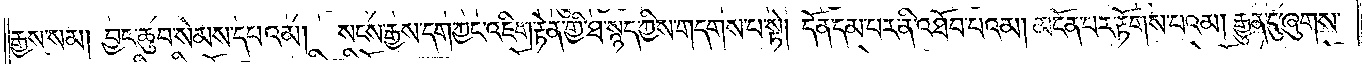རྒྱས་སམ། བྱང་ཆུབ་སེམས་དཔའམ། སངས་རྒྱས་དག་ཀྱང་འཇིག་རྟེན་གྱི་ཐ་སྙད་ཀྱིས་གདགས་པ་སྟེ། དོན་དམ་པར་ནི་འཐོབ་པའམ། མངོན་པར་རྟོགས་པའམ། རྒྱུན་དུ་ཞུགས་
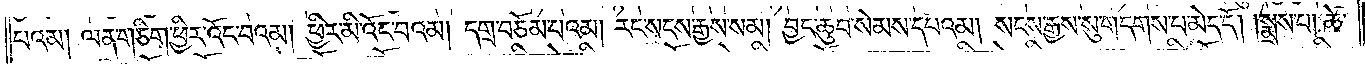པའམ། ལན་ཅིག་ཕྱིར་འོང་བའམ། ཕྱིར་མི་འོང་བའམ། དགྲ་བཅོམ་པའམ། རང་སངས་རྒྱས་སམ། བྱང་ཆུབ་སེམས་དཔའམ། སངས་རྒྱས་སུ་གདགས་པ་མེད་དོ། །སྨྲས་པ། ཚེ་
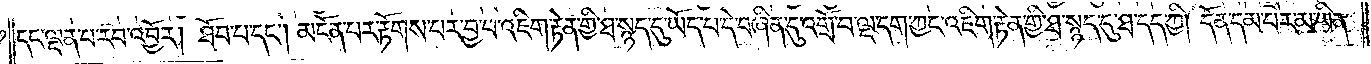དང་ལྡན་པ་རབ་འབྱོར། ཐོབ་པ་དང༌། མངོན་པར་རྟོགས་པར་བྱ་བ་འཇིག་རྟེན་གྱི་ཐ་སྙད་དུ་ཡོད་པ་དེ་བཞིན་དུ་འགྲོ་བ་ལྔ་དག་ཀྱང་འཇིག་རྟེན་གྱི་ཐ་སྙད་དུ་ཐ་དད་ཀྱི། དོན་དམ་པར་མ་ཡིན་
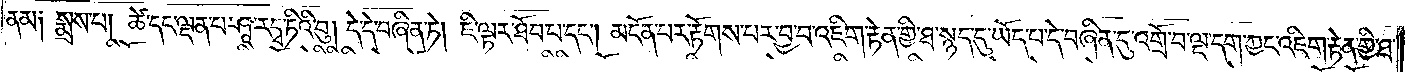ནམ༏ སྨྲས་པ། ཚེ་དང་ལྡན་པ་ཤཱ་ར་དྭ་ཏིའི་བུ། དེ་དེ་བཞིན་ཏེ། ཇི་ལྟར་ཐོབ་པ་དང༌། མངོན་པར་རྟོགས་པར་བྱ་བ་འཇིག་རྟེན་གྱི་ཐ་སྙད་དུ་ཡོད་པ་དེ་བཞིན་དུ་འགྲོ་བ་ལྔ་དག་ཀྱང་འཇིག་རྟེན་གྱི་ཐ་
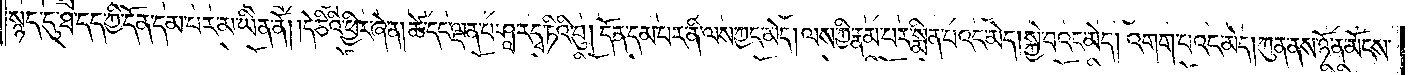སྙད་དུ་ཐ་དད་ཀྱི་དོན་དམ་པར་མ་ཡིན་ནོ། །དེ་ཅིའི་ཕྱིར་ཞེ་ན། ཚེ་དང་ལྡན་པ་ཤཱ་ར་དྭ་ཏིའི་བུ། དོན་དམ་པར་ནི་ལས་ཀྱང་མེད། ལས་ཀྱི་རྣམ་པར་སྨིན་པའང་མེད། སྐྱེ་བའང་མེད། འགག་པའང་མེད། ཀུན་ནས་ཉོན་མོངས་
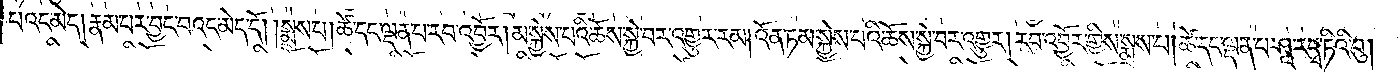པའང་མེད། རྣམ་པར་བྱང་བའང་མེད་དོ། །སྨྲས་པ། ཚེ་དང་ལྡན་པ་རབ་འབྱོར། མ་སྐྱེས་པའི་ཆོས་སྐྱེ་པར་འགྱུར་རམ། འོན་ཏམ་སྐྱེས་པའི་ཆོས་སྐྱེ་བར་འགྱུར། རབ་འབྱོར་གྱིས་སྨྲས་པ། ཚེ་དང་ལྡན་པ་ཤཱ་ར་དྭ་ཏིའི་བུ།
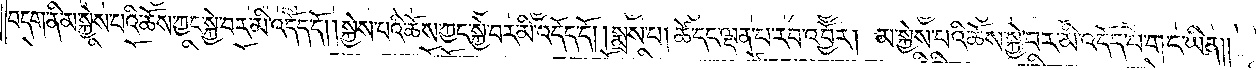བདག་ནི་མ་སྐྱེས་པའི་ཆོས་ཀྱང་སྐྱེ་བར་མི་འདོད་དོ། །སྐྱེས་པའི་ཆོས་ཀྱང་སྐྱེ་བར་མི་འདོད་དོ། །སྨྲས་པ། ཚེ་དང་ལྡན་པ་རབ་འབྱོར། མ་སྐྱེས་པའི་ཆོས་སྐྱེ་བར་མི་འདོད་པ་གང་ཡིན༎
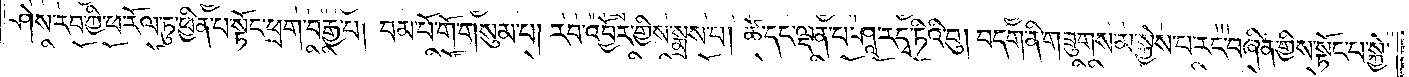ཤེས་རབ་ཀྱི་ཕ་རོལ་ཏུ་ཕྱིན་པ་སྟོང་ཕྲག་བརྒྱ་པ། །བམ་པོ་གོ་གསུམ་པ། །རབ་འབྱོར་གྱིས་སྨྲས་པ། ཚེ་དང་ལྡན་པ་ཤཱ་ར་དྭ་ཏིའི་བུ། བདག་ནི་གཟུགས་མ་སྐྱེས་པ་རང་བཞིན་གྱིས་སྟོང་པ་སྐྱེ་
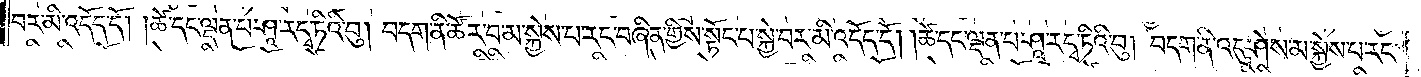བར་མི་འདོད་དོ། །ཚེ་དང་ལྡན་པ་ཤཱ་ར་དྭ་ཏིའི་བུ། བདག་ནི་ཚོར་བ་མ་སྐྱེས་པ་རང་བཞིན་གྱིས་སྟོང་པ་སྐྱེ་བར་མི་འདོད་དོ། །ཚེ་དང་ལྡན་པ་ཤཱ་ར་དྭ་ཏིའི་བུ། བདག་ནི་འདུ་ཤེས་མ་སྐྱེས་པ་རང་
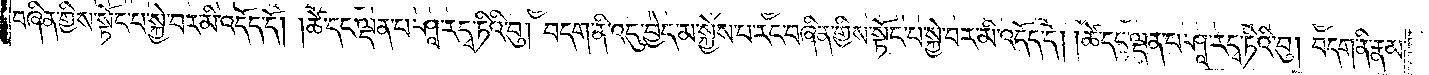བཞིན་གྱིས་སྟོང་པ་སྐྱེ་བར་མི་འདོད་དོ། །ཚེ་དང་ལྡན་པ་ཤཱ་ར་དྭ་ཏིའི་བུ། བདག་ནི་འདུ་བྱེད་མ་སྐྱེས་པ་རང་བཞིན་གྱིས་སྟོང་པ་སྐྱེ་བར་མི་འདོད་དོ། །ཚེ་དང་ལྡན་པ་ཤཱ་ར་དྭ་ཏིའི་བུ། བདག་ནི་རྣམ་
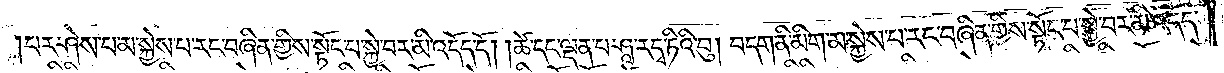པར་ཤེས་པ་མ་སྐྱེས་པ་རང་བཞིན་གྱིས་སྟོང་པ་སྐྱེ་བར་མི་འདོད་དོ། །ཚེ་དང་ལྡན་པ་ཤཱ་ར་དྭ་ཏིའི་བུ། བདག་ནི་མིག་མ་སྐྱེས་པ་རང་བཞིན་གྱིས་སྟོང་པ་སྐྱེ་བར་མི་འདོད་
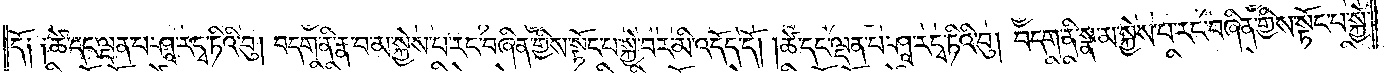དོ༏ ༏ཚེ་དང་ལྡན་པ་ཤཱ་ར་དྭ་ཏིའི་བུ། བདག་ནི་རྣ་བ་མ་སྐྱེས་པ་རང་བཞིན་གྱིས་སྟོང་པ་སྐྱེ་བར་མི་འདོད་དོ། །ཚེ་དང་ལྡན་པ་ཤཱ་ར་དྭ་ཏིའི་བུ། བདག་ནི་སྣ་མ་སྐྱེས་པ་རང་བཞིན་གྱིས་སྟོང་པ་སྐྱེ་
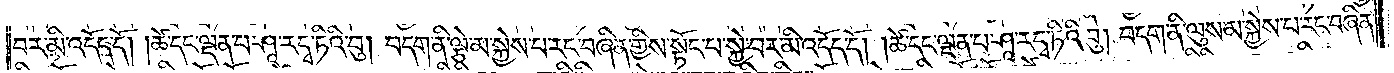བར་མི་འདོད་དོ། །ཚེ་དང་ལྡན་པ་ཤཱ་ར་དྭ་ཏིའི་བུ། བདག་ནི་ལྕེ་མ་སྐྱེས་པ་རང་བཞིན་གྱིས་སྟོང་པ་སྐྱེ་བར་མི་འདོད་དོ། །ཚེ་དང་ལྡན་པ་ཤཱ་ར་དྭ་ཏིའི་བུ། བདག་ནི་ལུས་མ་སྐྱེས་པ་རང་བཞིན་
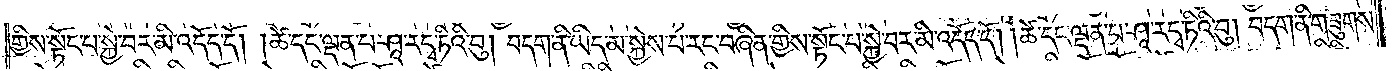གྱིས་སྟོང་པ་སྐྱེ་བར་མི་འདོད་དོ། །ཚེ་དང་ལྡན་པ་ཤཱ་ར་དྭ་ཏིའི་བུ། བདག་ནི་ཡིད་མ་སྐྱེས་པ་རང་བཞིན་གྱིས་སྟོང་པ་སྐྱེ་བར་མི་འདོད་དོ། །ཚེ་དང་ལྡན་པ་ཤཱ་ར་དྭ་ཏིའི་བུ། བདག་ནི་གཟུགས་
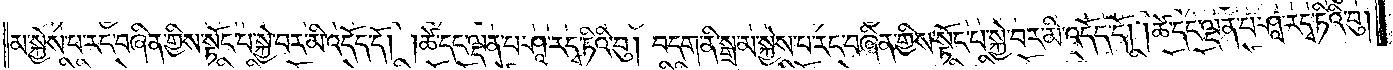མ་སྐྱེས་པ་རང་བཞིན་གྱིས་སྟོང་པ་སྐྱེ་བར་མི་འདོད་དོ། །ཚེ་དང་ལྡན་པ་ཤཱ་ར་དྭ་ཏིའི་བུ། བདག་ནི་སྒྲ་མ་སྐྱེས་པ་རང་བཞིན་གྱིས་སྟོང་པ་སྐྱེ་བར་མི་འདོད་དོ། །ཚེ་དང་ལྡན་པ་ཤཱ་ར་དྭ་ཏིའི་བུ།
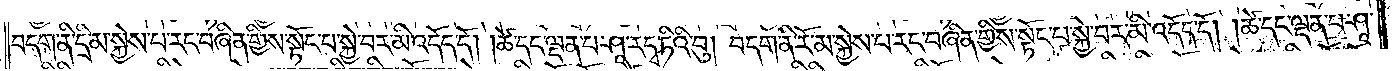བདག་ནི་དྲི་མ་སྐྱེས་པ་རང་བཞིན་གྱིས་སྟོང་པ་སྐྱེ་བར་མི་འདོད་དོ། །ཚེ་དང་ལྡན་པ་ཤཱ་ར་དྭ་ཏིའི་བུ། བདག་ནི་རོ་མ་སྐྱེས་པ་རང་བཞིན་གྱིས་སྟོང་པ་སྐྱེ་བར་མི་འདོད་དོ། །ཚེ་དང་ལྡན་པ་ཤཱ་ར་དྭ་
